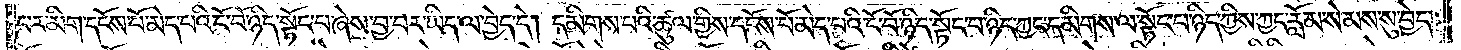པར་མིག་དངོས་པོ་མེད་པའི་ངོ་བོ་ཉིད་སྟོང་པ་ཞེས་བྱ་བར་ཡིད་ལ་བྱེད་དེ། དམིགས་པའི་ཚུལ་གྱིས་དངོས་པོ་མེད་པའི་ངོ་བོ་ཉིད་སྟོང་པ་ཉིད་ཀྱང་དམིགས་ལ་སྟོང་པ་ཉིད་ཀྱིས་ཀྱང་རློམ་སེམས་སུ་བྱེད་
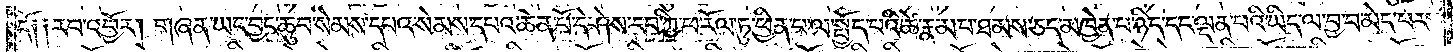དོ༑ ༑རབ་འབྱོར། གཞན་ཡང་བྱང་ཆུབ་སེམས་དཔའ་སེམས་དཔའ་ཆེན་པོ་དེ་ཤེས་རབ་ཀྱི་ཕ་རོལ་ཏུ་ཕྱིན་པ་ལ་སྤྱོད་པའི་ཚེ་རྣམ་པ་ཐམས་ཅད་མཁྱེན་པ་ཉིད་དང་ལྡན་པའི་ཡིད་ལ་བྱ་བ་མེད་པར་
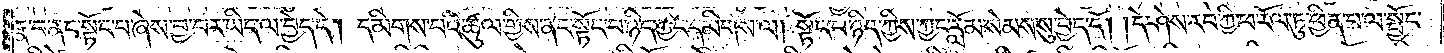རྣ་བ་ནང་སྟོང་པ་ཞེས་བྱ་བར་ཡིད་ལ་བྱེད་དེ། དམིགས་པའི་ཚུལ་གྱིས་ནང་སྟོང་པ་ཉིད་ཀྱང་དམིགས་ལ། སྟོང་པ་ཉིད་ཀྱིས་ཀྱང་རློམ་སེམས་སུ་བྱེད་དོ། །དེ་ཤེས་རབ་ཀྱི་ཕ་རོལ་ཏུ་ཕྱིན་པ་ལ་སྤྱོད་
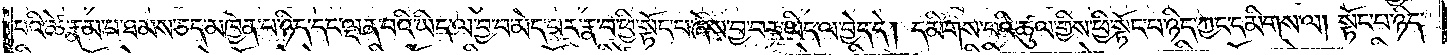པའི་ཚེ་རྣམ་པ་ཐམས་ཅད་མཁྱེན་པ་ཉིད་དང་ལྡན་པའི་ཡིད་ལ་བྱ་བ་མེད་པར་རྣ་བ་ཕྱི་སྟོང་པ་ཞེས་བྱ་བར་ཡིད་ལ་བྱེད་དེ། དམིགས་པའི་ཚུལ་གྱིས་ཕྱི་སྟོང་པ་ཉིད་ཀྱང་དམིགས་ལ། སྟོང་པ་ཉིད་
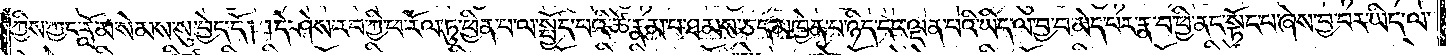ཀྱིས་ཀྱང་རློམ་སེམས་སུ་བྱེད་དོ། །དེ་ཤེས་རབ་ཀྱི་ཕ་རོལ་ཏུ་ཕྱིན་པ་ལ་སྤྱོད་པའི་ཚེ་རྣམ་པ་ཐམས་ཅད་མཁྱེན་པ་ཉིད་དང་ལྡན་པའི་ཡིད་ལ་བྱ་བ་མེད་པར་རྣ་བ་ཕྱི་ནང་སྟོང་པ་ཞེས་བྱ་བར་ཡིད་ལ་
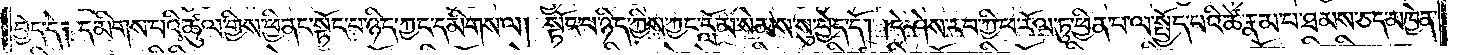བྱེད་དེ༑ དམིགས་པའི་ཚུལ་གྱིས་ཕྱི་ནང་སྟོང་པ་ཉིད་ཀྱང་དམིགས་ལ། སྟོང་པ་ཉིད་ཀྱིས་ཀྱང་རློམ་སེམས་སུ་བྱེད་དོ། །དེ་ཤེས་རབ་ཀྱི་ཕ་རོལ་ཏུ་ཕྱིན་པ་ལ་སྤྱོད་པའི་ཚེ་རྣམ་པ་ཐམས་ཅད་མཁྱེན་
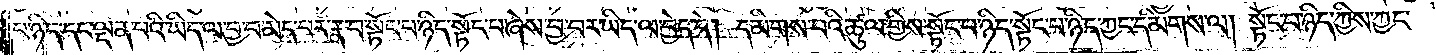པ་ཉིད་དང་ལྡན་པའི་ཡིད་ལ་བྱ་བ་མེད་པར་རྣ་བ་སྟོང་པ་ཉིད་སྟོང་པ་ཞེས་བྱ་བར་ཡིད་ལ་བྱེད་དེ། དམིགས་པའི་ཚུལ་གྱིས་སྟོང་པ་ཉིད་སྟོང་པ་ཉིད་ཀྱང་དམིགས་ལ། སྟོང་པ་ཉིད་ཀྱིས་ཀྱང་
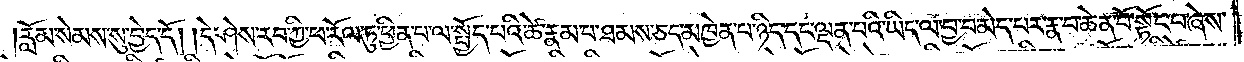རློམ་སེམས་སུ་བྱེད་དོ། །དེ་ཤེས་རབ་ཀྱི་ཕ་རོལ་ཏུ་ཕྱིན་པ་ལ་སྤྱོད་པའི་ཚེ་རྣམ་པ་ཐམས་ཅད་མཁྱེན་པ་ཉིད་དང་ལྡན་པའི་ཡིད་ལ་བྱ་བ་མེད་པར་རྣ་བ་ཆེན་པོ་སྟོང་པ་ཞེས་
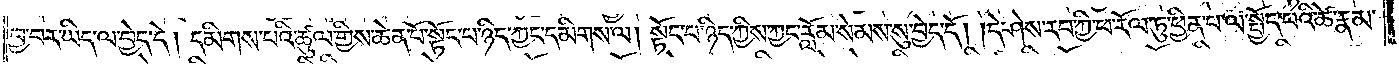བྱ་བར་ཡིད་ལ་བྱེད་དེ། དམིགས་པའི་ཚུལ་གྱིས་ཆེན་པོ་སྟོང་པ་ཉིད་ཀྱང་དམིགས་ལ། སྟོང་པ་ཉིད་ཀྱིས་ཀྱང་རློམ་སེམས་སུ་བྱེད་དོ། །དེ་ཤེས་རབ་ཀྱི་ཕ་རོལ་ཏུ་ཕྱིན་པ་ལ་སྤྱོད་པའི་ཚེ་རྣམ་
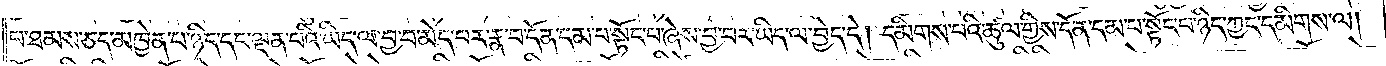པ་ཐམས་ཅད་མཁྱེན་པ་ཉིད་དང་ལྡན་པའི་ཡིད་ལ་བྱ་བ་མེད་པར་རྣ་བ་དོན་དམ་པ་སྟོང་པ་ཞེས་བྱ་བར་ཡིད་ལ་བྱེད་དེ། དམིགས་པའི་ཚུལ་གྱིས་དོན་དམ་པ་སྟོང་པ་ཉིད་ཀྱང་དམིགས་ལ།
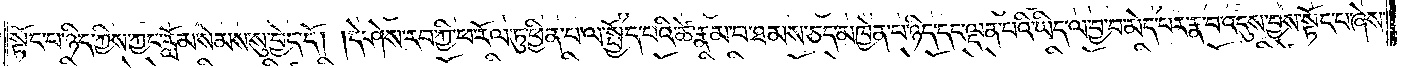སྟོང་པ་ཉིད་ཀྱིས་ཀྱང་རློམ་སེམས་སུ་བྱེད་དོ། །དེ་ཤེས་རབ་ཀྱི་ཕ་རོལ་ཏུ་ཕྱིན་པ་ལ་སྤྱོད་པའི་ཚེ་རྣམ་པ་ཐམས་ཅད་མཁྱེན་པ་ཉིད་དང་ལྡན་པའི་ཡིད་ལ་བྱ་བ་མེད་པར་རྣ་བ་འདུས་བྱས་སྟོང་པ་ཞེས་
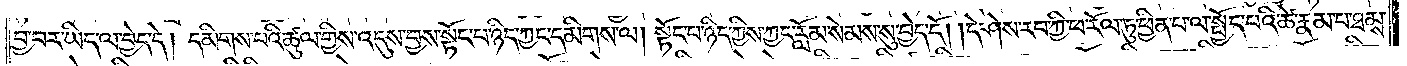བྱ་བར་ཡིད་ལ་བྱེད་དེ། དམིགས་པའི་ཚུལ་གྱིས་འདུས་བྱས་སྟོང་པ་ཉིད་ཀྱང་དམིགས་ལ། སྟོང་པ་ཉིད་ཀྱིས་ཀྱང་རློམ་སེམས་སུ་བྱེད་དོ། །དེ་ཤེས་རབ་ཀྱི་ཕ་རོལ་ཏུ་ཕྱིན་པ་ལ་སྤྱོད་པའི་ཚེ་རྣམ་པ་ཐམས་
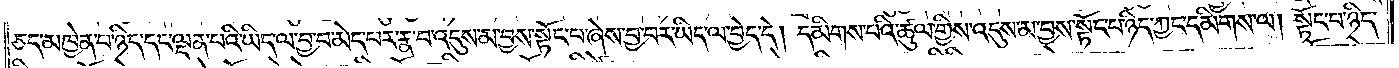ཅད་མཁྱེན་པ་ཉིད་དང་ལྡན་པའི་ཡིད་ལ་བྱ་བ་མེད་པར་རྣ་བ་འདུས་མ་བྱས་སྟོང་པ་ཞེས་བྱ་བར་ཡིད་ལ་བྱེད་དེ། དམིགས་པའི་ཚུལ་གྱིས་འདུས་མ་བྱས་སྟོང་པ་ཉིད་ཀྱང་དམིགས་ལ། སྟོང་པ་ཉིད་
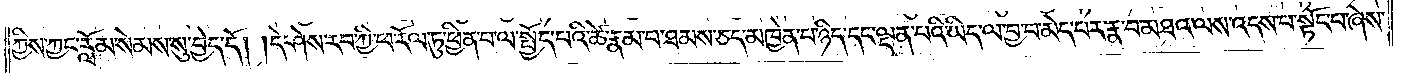ཀྱིས་ཀྱང་རློམ་སེམས་སུ་བྱེད་དོ། །དེ་ཤེས་རབ་ཀྱི་ཕ་རོལ་ཏུ་ཕྱིན་པ་ལ་སྤྱོད་པའི་ཚེ་རྣམ་པ་ཐམས་ཅད་མཁྱེན་པ་ཉིད་དང་ལྡན་པའི་ཡིད་ལ་བྱ་བ་མེད་པར་རྣ་བ་མཐའ་ལས་འདས་པ་སྟོང་པ་ཞེས་
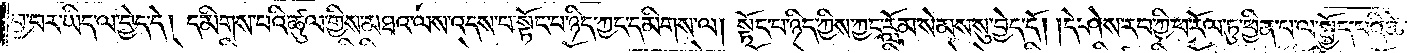བྱ་བར་ཡིད་ལ་བྱེད་དེ། དམིགས་པའི་ཚུལ་གྱིས་མཐའ་ལས་འདས་པ་སྟོང་པ་ཉིད་ཀྱང་དམིགས་ལ། སྟོང་པ་ཉིད་ཀྱིས་ཀྱང་རློམ་སེམས་སུ་བྱེད་དོ། །དེ་ཤེས་རབ་ཀྱི་ཕ་རོལ་ཏུ་ཕྱིན་པ་ལ་སྤྱོད་པའི་ཚེ་
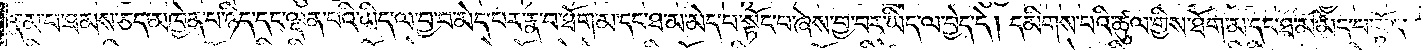རྣམ་པ་ཐམས་ཅད་མཁྱེན་པ་ཉིད་དང་ལྡན་པའི་ཡིད་ལ་བྱ་བ་མེད་པར་རྣ་བ་ཐོག་མ་དང་ཐ་མ་མེད་པ་སྟོང་པ་ཞེས་བྱ་བར་ཡིད་ལ་བྱེད་དེ། དམིགས་པའི་ཚུལ་གྱིས་ཐོག་མ་དང་ཐ་མ་མེད་པ་སྟོང་
